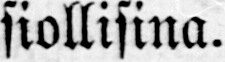siollisina.
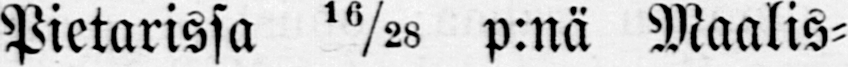Pietarissa 16/28 p:nä Maalis-
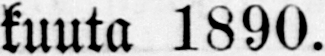kuuta 1890.
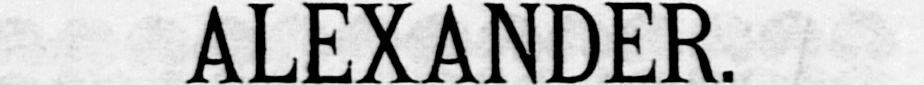ALEXANDER.
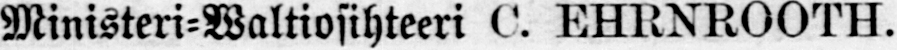Ministeri-Waltiosihteeri C. EHRNROOTH.
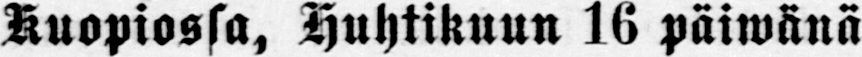Kuopiossa, Huhtikuun 16 päiwänä.
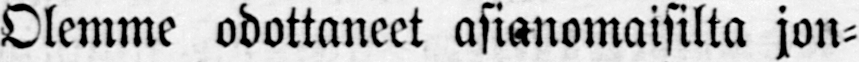Olemme odottaneet asianomaisilta jon-
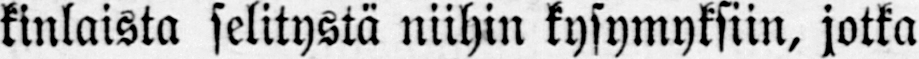kinlaista silitystä niihin kysymyksiin, jotka
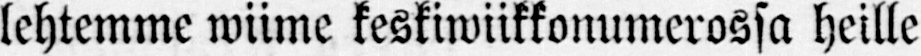lehtemme wiime keskiwiikkonumerossa heille
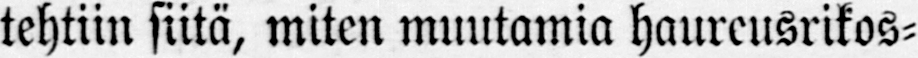tehtiin siitä, miten muutamia haureusrikos-
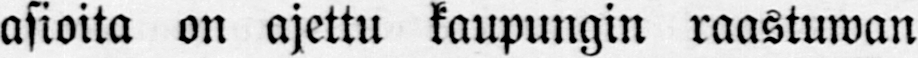asioita on ajettu kaupungin raastuwan
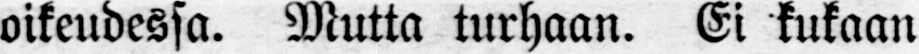oikeudessa. Mutta turhaan. Ei kukaan
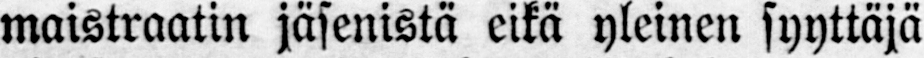maistraatin jäsenistä eikä yleinen syyttäjä
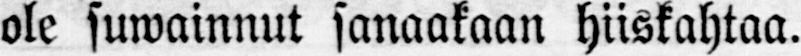ole suwainnut sanaakaan hiiskahtaa.
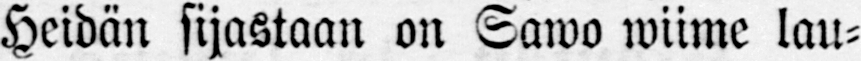Heidän sijastaan on Sawo wiime lau-
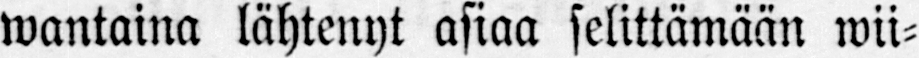wantaina lähtenyt asiaa selittämään wii-
